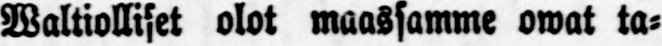Waltiolliset olot maassamme owat ta-
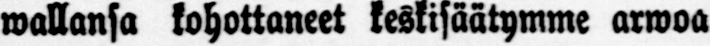wallansa kohottaneet keskisäätymme arwoa
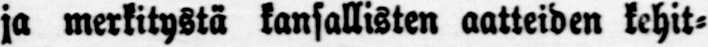ja merkitystä kansallisten aatteiden kehit-
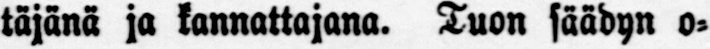täjänä ja kannattajana. Tuon säädyn o-
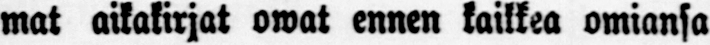mat aikakirjat owat ennen kaikkea omiansa
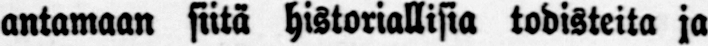antamaan siitä historiallisia todisteita ja
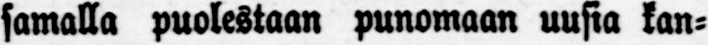samalla puolestaan punomaan uusia kan-
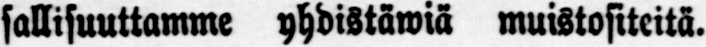sallisuuttamme yhdistäwiä muistositeitä.
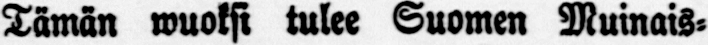Tämän wuoksi tulee Suomen Muinais-
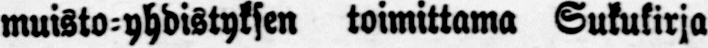muisto-yhdistyksen toimittama Sukukirja
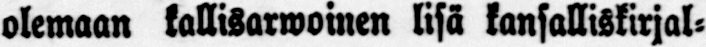olemaan kallisarwoinen lisä kansalliskirjal-
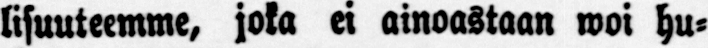lisuuteemme, joka ei ainoastaan woi hu-
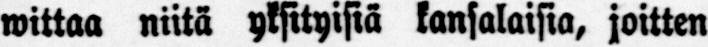wittaa niitä yksityisiä kansalaisia, joitten
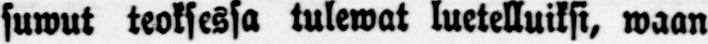suwut teoksessa tulewat luetelluiksi, waan
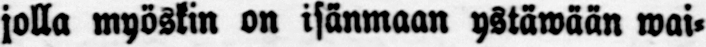jolla myöskin on isänmaan ystäwään wai-
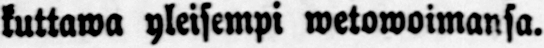kuttawa yleisempi wetowoimansa.
